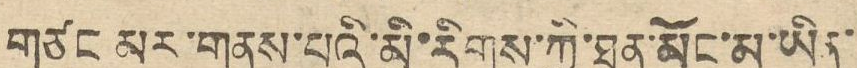གཙང མར་གནས་པའི་མི་རིགས་ཀྱི་ཐུན་མོང་མ་ཡིན་
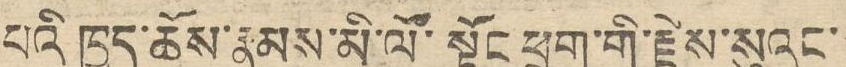པའི ཁྱད་ཆོས་རྣམས་མི་ལོ་སྟོང ཕྲག་གི་རྗེས་སུའང་
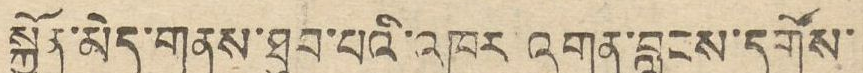སྐྱོན་མེད་གནས་ཐུབ་པའི་འཁུར འགན་བླངས་དགོས་
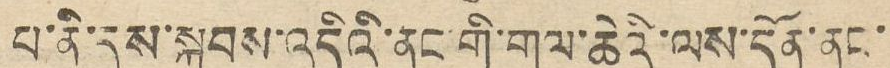པ་ནི་དུས་སྐབས་འདིའི་ནང་གི་གལ་ཆེའི་ལས་དོན་ནང་
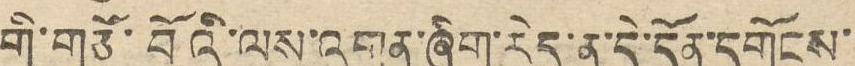གི་གཙོ་བོའི་ལས་འགན་ཞིག་རེད་ན་དེ་དོན་དགོངས་
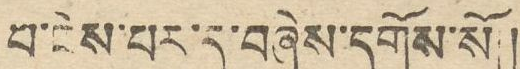པ་ངེས་པར་དུ་བཞེས་དགོས་སོ།།
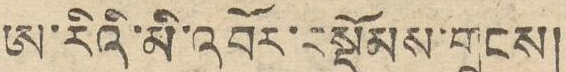ཨ་རིའི་མི་འབོར་བསྡོམས་གྲངས།
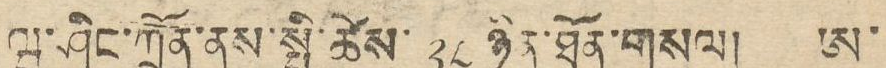ཝ་ཤིང་ཀྲོན་ནས་སྤྱི་ཚེས་ ༢༨ ཉིན་ཐོན་གསལ། ཨ་
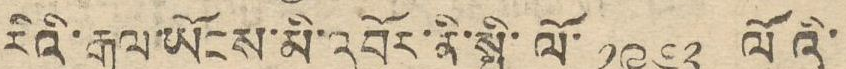རིའི་རྒྱལ་ཡོངས་མི་འབོར་ནི་སྤྱི་ལོ་ ༡༩༦༢ ལོའི་
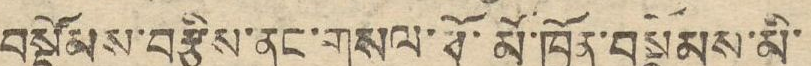བསྡོམས་བརྩིས་ནང་གསལ་ཕོ་མོ་ཁྱོན་བསྡོམས་མི་
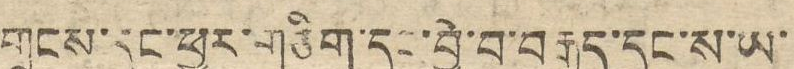གྲངས་དུང་ཕྱུར་གཅིག་དང་བྱེ་བ་བརྒྱད་དང་ས་ཡ་
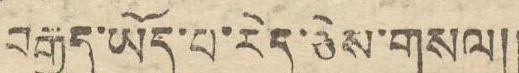བརྒྱད་ཡོད་པ་རེད་ཅེས་གསལ།།
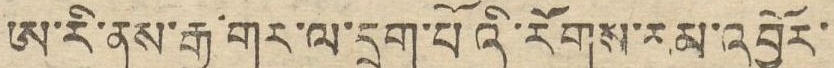ཨ་རི་ནས་རྒྱ་གར་ལ་དྲག་པོའི་རོགས་རམ་འབྱོར་
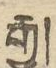རྒྱུ།
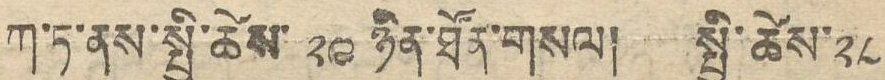ཀ་ཏ་ནས་སྤྱི་ཚེས ༢༩ ཉིན་ཐོན་གསལ། སྤྱི་ཚེས་ ༢༨
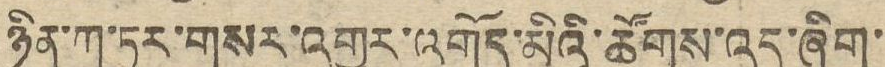ཉིན་ཀ་ཏར་གསར་འགྱུར་འགོད་མའི་ཚོགས་འདུ་ཞིག་
